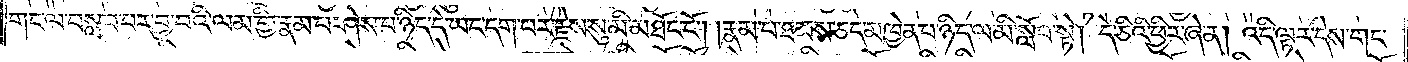གང་ལ་བསླབ་པར་བྱ་བའི་ལམ་གྱི་རྣམ་པ་ཤེས་པ་ཉིད་དེ་ཡང་དག་པར་རྗེས་སུ་མི་མཐོང་ངོ༌། །རྣམ་པ་ཐམས་ཅད་མཁྱེན་པ་ཉིད་ལ་མི་སློབ་སྟེ། དེ་ཅིའི་ཕྱིར་ཞེ་ན། འདི་ལྟར་དེས་གང་
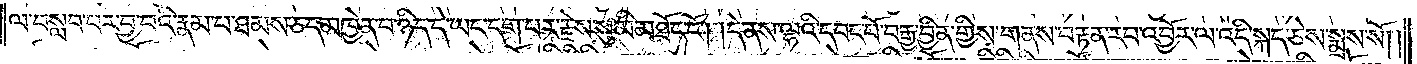ལ་བསླབ་པར་བྱ་བའི་རྣམ་པ་ཐམས་ཅད་མཁྱེན་པ་ཉིད་དེ་ཡང་དག་པར་རྗེས་སུ་མི་མཐོང་ངོ༌། །དེ་ནས་ལྷའི་དབང་པོ་བརྒྱ་བྱིན་གྱིས་གནས་བརྟན་རབ་འབྱོར་ལ་འདི་སྐད་ཅེས་སྨྲས་སོ༎
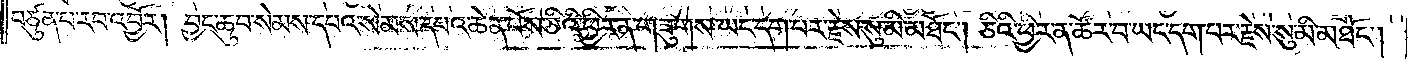བཙུན་པ་རབ་འབྱོར། བྱང་ཆུབ་སེམས་དཔའ་སེམས་དཔའ་ཆེན་པོས་ཅིའི་ཕྱིར་ན་གཟུགས་ཡང་དག་པར་རྗེས་སུ་མི་མཐོང༌། ཅིའི་ཕྱིར་ན་ཚོར་བ་ཡང་དག་པར་རྗེས་སུ་མི་མཐོང༌།
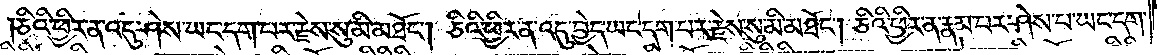ཅིའི་ཕྱིར་ན་འདུ་ཤེས་ཡང་དག་པར་རྗེས་སུ་མི་མཐོང༌། ཅིའི་ཕྱིར་ན་འདུ་བྱེད་ཡང་དག་པར་རྗེས་སུ་མི་མཐོང༌། ཅིའི་ཕྱིར་ན་རྣམ་པར་ཤེས་པ་ཡང་དག་
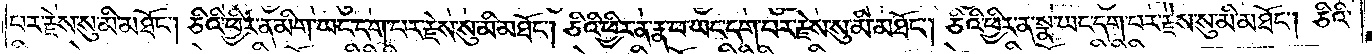པར་རྗེས་སུ་མི་མཐོང༌། ཅིའི་ཕྱིར་ན་མིག་ཡང་དག་པར་རྗེས་སུ་མི་མཐོང༌། ཅིའི་ཕྱིར་ན་རྣ་བ་ཡང་དག་པར་རྗེས་སུ་མི་མཐོང༌། ཅིའི་ཕྱིར་ན་སྣ་ཡང་དག་པར་རྗེས་སུ་མི་མཐོང༌། ཅིའི་
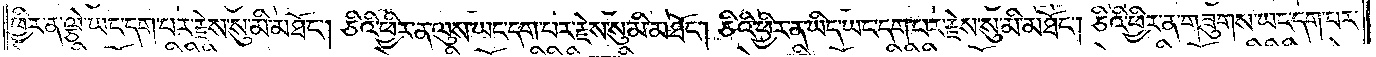ཕྱིར་ན་ལྕེ་ཡང་དག་པར་རྗེས་སུ་མི་མཐོང༌། ཅིའི་ཕྱིར་ན་ལུས་ཡང་དག་པར་རྗེས་སུ་མི་མཐོང༌། ཅིའི་ཕྱིར་ན་ཡིད་ཡང་དག་པར་རྗེས་སུ་མི་མཐོང༌། ཅིའི་ཕྱིར་ན་གཟུགས་ཡང་དག་པར་
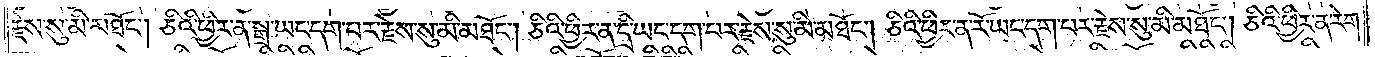རྗེས་སུ་མི་མཐོང༌། ཅིའི་ཕྱིར་ན་སྒྲ་ཡང་དག་པར་རྗེས་སུ་མི་མཐོང༌། ཅིའི་ཕྱིར་ན་དྲི་ཡང་དག་པར་རྗེས་སུ་མི་མཐོང༌། ཅིའི་ཕྱིར་ན་རོ་ཡང་དག་པར་རྗེས་སུ་མི་མཐོང༌། ཅིའི་ཕྱིར་ན་རེག་
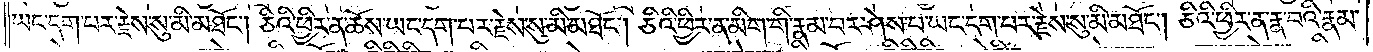ཡང་དག་པར་རྗེས་སུ་མི་མཐོང༌། ཅིའི་ཕྱིར་ན་ཆོས་ཡང་དག་པར་རྗེས་སུ་མི་མཐོང༌། ཅིའི་ཕྱིར་ན་མིག་གི་རྣམ་པར་ཤེས་པ་ཡང་དག་པར་རྗེས་སུ་མི་མཐོང༌། ཅིའི་ཕྱིར་ན་རྣ་བའི་རྣམ་
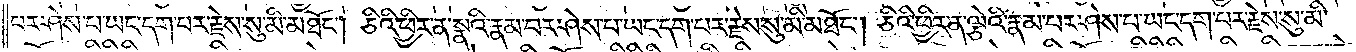པར་ཤེས་པ་ཡང་དག་པར་རྗེས་སུ་མི་མཐོང༌། ཅིའི་ཕྱིར་ན་སྣའི་རྣམ་པར་ཤེས་པ་ཡང་དག་པར་རྗེས་སུ་མི་མཐོང༌། ཅིའི་ཕྱིར་ན་ལྕེའི་རྣམ་པར་ཤེས་པ་ཡང་དག་པར་རྗེས་སུ་མི་
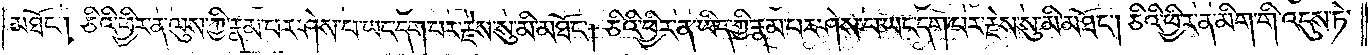མཐོང༌། ཅིའི་ཕྱིར་ན་ལུས་ཀྱི་རྣམ་པར་ཤེས་པ་ཡང་དག་པར་རྗེས་སུ་མི་མཐོང༌། ཅིའི་ཕྱིར་ན་ཡིད་ཀྱི་རྣམ་པར་ཤེས་པ་ཡང་དག་པར་རྗེས་སུ་མི་མཐོང༌། ཅིའི་ཕྱིར་ན་མིག་གི་འདུས་ཏེ་
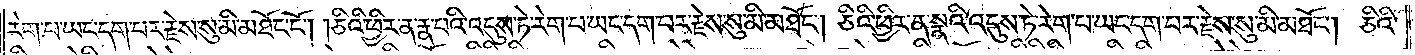རེག་པ་ཡང་དག་པར་རྗེས་སུ་མི་མཐོང༌། ཅིའི་ཕྱིར་ན་རྣ་བའི་འདུས་ཏེ་རེག་པ་ཡང་དག་པར་རྗེས་སུ་མི་མཐོང༌། ཅིའི་ཕྱིར་ན་སྣའི་འདུས་ཏེ་རེག་པ་ཡང་དག་པར་རྗེས་སུ་མི་མཐོང༌། ཅིའི་
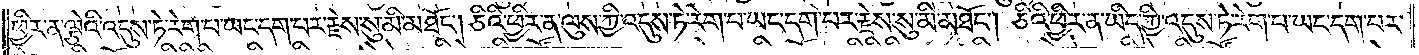ཕྱིར་ན་ལྕེའི་འདུས་ཏེ་རེག་པ་ཡང་དག་པར་རྗེས་སུ་མི་མཐོང༌། ཅིའི་ཕྱིར་ན་ལུས་ཀྱི་འདུས་ཏེ་རེག་པ་ཡང་དག་པར་རྗེས་སུ་མི་མཐོང༌། ཅིའི་ཕྱིར་ན་ཡིད་ཀྱི་འདུས་ཏེ་རེག་པ་ཡང་དག་པར་
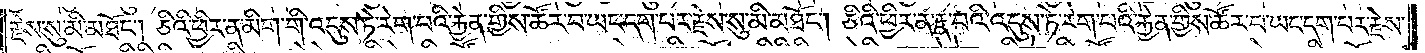རྗེས་སུ་མི་མཐོང༌། ཅིའི་ཕྱིར་ན་མིག་གི་འདུས་ཏེ་རེག་པའི་རྐྱེན་གྱིས་ཚོར་བ་ཡང་དག་པར་རྗེས་སུ་མི་མཐོང༌། ཅིའི་ཕྱིར་ན་རྣ་བའི་འདུས་ཏེ་རེག་པའི་རྐྱེན་གྱིས་ཚོར་བ་ཡང་དག་པར་རྗེས་
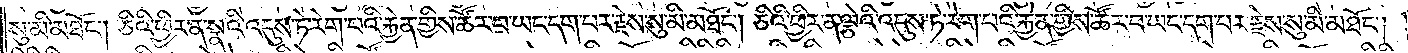སུ་མི་མཐོང༌། ཅིའི་ཕྱིར་ན་སྣའི་འདུས་ཏེ་རེག་པའི་རྐྱེན་གྱིས་ཚོར་བ་ཡང་དག་པར་རྗེས་སུ་མི་མཐོང༌། ཅིའི་ཕྱིར་ན་ལྕེའི་འདུས་ཏེ་རེག་པའི་རྐྱེན་གྱིས་ཚོར་བ་ཡང་དག་པར་རྗེས་སུ་མི་མཐོང༌།
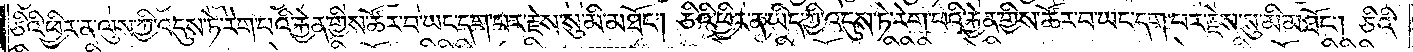ཅིའི་ཕྱིར་ན་ལུས་ཀྱི་འདུས་ཏེ་རེག་པའི་རྐྱེན་གྱིས་ཚོར་བ་ཡང་དག་པར་རྗེས་སུ་མི་མཐོང༌། ཅིའི་ཕྱིར་ན་ཡིད་ཀྱི་འདུས་ཏེ་རེག་པའི་རྐྱེན་གྱིས་ཚོར་བ་ཡང་དག་པར་རྗེས་སུ་མི་མཐོང༌། ཅིའི་
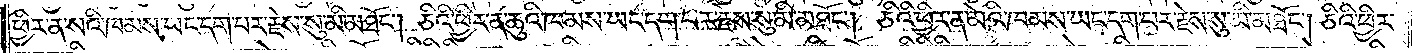ཕྱིར་ན་སའི་ཁམས་ཡང་དག་པར་རྗེས་སུ་མི་མཐོང༌། ཅིའི་ཕྱིར་ན་ཆུའི་ཁམས་ཡང་དག་པར་རྗེས་སུ་མི་མཐོང༌། ཅིའི་ཕྱིར་ན་མེའི་ཁམས་ཡང་དག་པར་རྗེས་སུ་མི་མཐོང༌། ཅིའི་ཕྱིར་
